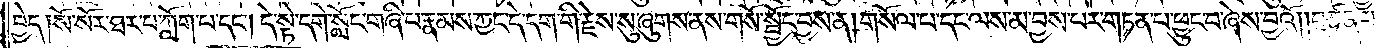བྱེད། སོ་སོར་ཐར་པ་ཀློག་པ་དང༌། དེ་སྟེ་དགེ་སློང་གཞི་པ་རྣམས་ཀྱང་དེ་དག་གི་རྗེས་སུ་ཞུགས་ནས་གསོ་སྦྱོང་བྱས་ན། གསོལ་པ་དང་ལས་མ་བྱས་པར་གཏན་པ་ཕྱུང་བ་ཞེས་བྱའོ། །བཙུན་པ།
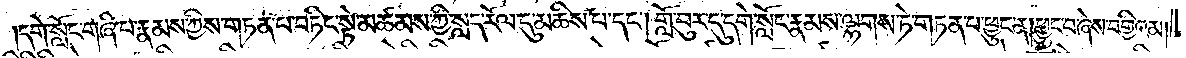དགེ་སློང་གཞི་པ་རྣམས་ཀྱིས་གཏན་པ་བཏིང་སྟེ་མཚམས་ཀྱི་སླད་རོལ་དུ་མཆིས་པ་དང༌། གློ་བུར་དུ་དགེ་སློང་རྣམས་ལྷགས་ཏེ་གཏན་པ་ཕྱུང་ན། ཕྱུང་བ་ཞེས་བགྱིའམ།
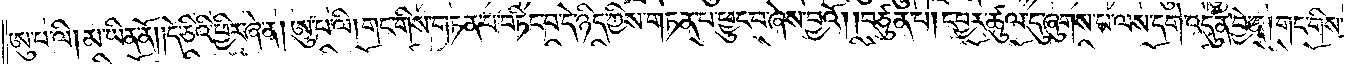ཨུ་པ་ལི། མ་ཡིན་ནོ། །དེ་ཅིའི་ཕྱིར་ཞེ་ན། ཨུ་པ་ལི། གང་གིས་གཏན་པ་བཏིང་བ་དེ་ཉིད་ཀྱིས་གཏན་པ་ཕྱུང་བ་ཞེས་བྱའོ། །བཙུན་པ། དབྱར་ཚུལ་དུ་ཞུགས་པ་ལས་དགེ་འདུན་བྱེ་ན། གང་གིས་
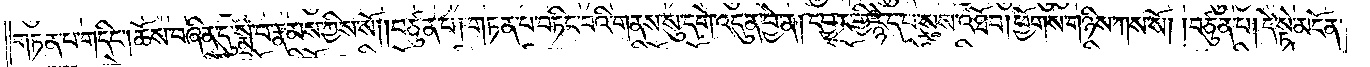གཏན་པ་གདིང༌། ཆོས་བཞིན་དུ་སྨྲ་བ་རྣམས་ཀྱིས་སོ། །བཙུན་པ། གཏན་པ་བཏིང་བའི་གནས་སུ་དགེ་འདུན་བྱེ་ན། དབྱར་གྱི་རྙེད་པ་སུས་འཐོབ། ཕྱོགས་གཉིས་ཀས་སོ། །བཙུན་པ། དེ་སྟེ་མངོན་
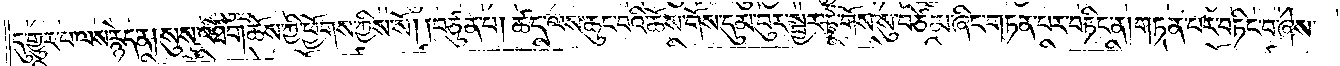དུ་གྱུར་པ་ལས་རྙེད་ན། སུས་འཐོབ། ཆོས་ཀྱི་ཕྱོགས་ཀྱིས་སོ། །བཙུན་པ། ཚད་ལས་ཆུང་བའི་ཆོས་གོས་དུམ་བུར་སྦྱར་ཏེ་གོས་སུ་བཙེམ་ཞིང་གཏན་པར་བཏིང་ན། གཏན་པར་བཏིང་བ་ཞེས་
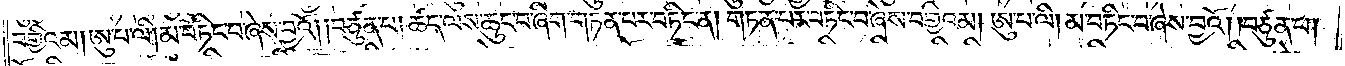བགྱིའམ། ཨུ་པ་ལི། མ་བཏིང་བ་ཞེས་བྱའོ། །བཙུན་པ། ཚད་ལས་ཆུང་བ་ཞིག་གཏན་པར་བཏིང་ན། གཏན་པར་བཏིང་བ་ཞེས་བགྱིའམ། ཨུ་པ་ལི། མ་བཏིང་བ་ཞེས་བྱའོ། །བཙུན་པ།
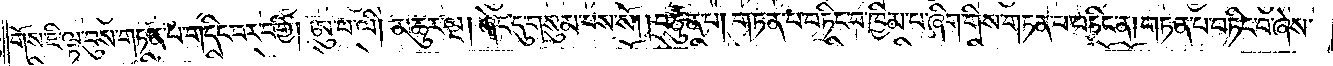གོས་ཇི་ལྟ་བུས་གཏན་པ་གདིང་བར་བགྱི། ཨུ་པ་ལི། མཆུར་ལྔ། ཞེང་དུ་གསུམ་པས་སོ། །བཙུན་པ། གཏན་པ་བཏིང་བ་ཁྱིམ་པ་ཞིག་གིས་གཏན་པ་བཏིང་ན། གཏན་པ་བཏིང་བ་ཞེས་
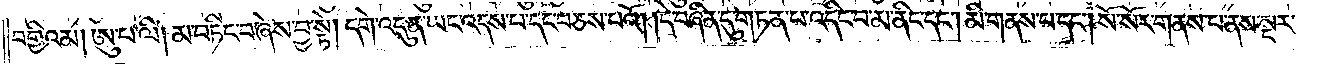བགྱིའམ། ཨུ་པ་ལི། མ་བཏིང་བ་ཞེས་བྱ་སྟེ། དགེ་འདུན་ཡང་འདས་པ་དང་བཅས་པའོ། །དེ་བཞིན་དུ་གཏན་པ་འདིང་བ་མ་ནིང་དང༌། མི་གནས་པ་དང༌། སོ་སོར་གནས་པ་ནས་སྔར་
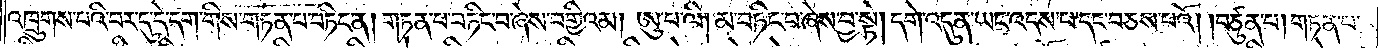འཁྲུགས་པའི་བར་དུ་དེ་དག་གིས་གཏན་པ་བཏིང་ན། གཏན་པ་བཏིང་བ་ཞེས་བགྱིའམ། ཨུ་པ་ལི། མ་བཏིང་བ་ཞེས་བྱ་སྟེ། དགེ་འདུན་ཡང་འདས་པ་དང་བཅས་པའོ། །བཙུན་པ། གཏན་པ་
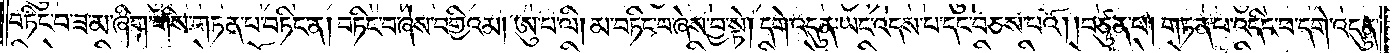བཏིང་བ་ཟ་མ་ཞིག་གིས་གཏན་པ་བཏིང་ན། བཏིང་བ་ཞེས་བགྱིའམ། ཨུ་པ་ལི། མ་བཏིང་བ་ཞེས་བྱ་སྟེ། དགེ་འདུན་ཡང་འདས་པ་དང་བཅས་པའོ། །བཙུན་པ། གཏན་པ་འདིང་བ་དགེ་འདུན་
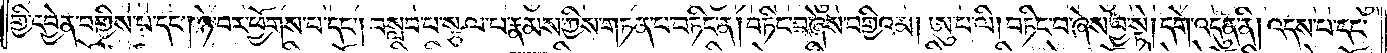གྱི་དབྱེན་བགྱིས་པ་དང༌། ཉེ་བར་ཕྱོགས་པ་དང༌། བསླབ་པ་སྩལ་པ་རྣམས་ཀྱིས་གཏན་པ་བཏིང་ན། བཏིང་བ་ཞེས་བགྱིའམ། ཨུ་པ་ལི། བཏིང་བ་ཞེས་བྱ་སྟེ། དགེ་འདུན་ནི། འདས་པ་དང་
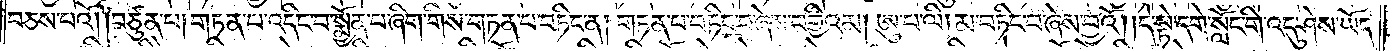བཅས་པའོ། །བཙུན་པ། གཏན་པ་འདིང་བ་སྨྱོན་བ་ཞིག་གིས་གཏན་པ་བཏིང་ན། གཏན་པ་བཏིང་བ་ཞེས་བགྱིའམ། ཨུ་པ་ལི། མ་བཏིང་བ་ཞེས་བྱའོ། །དེ་སྟེ་དགེ་སློང་གི་འདུ་ཤེས་ཡོད་
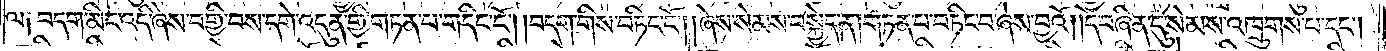ལ༑ བདག་མིང་འདི་ཞེས་བགྱི་བས་དགེ་འདུན་གྱི་གཏན་པ་གདིང་ངོ༌། །བདག་གིས་བཏིང་ངོ༌། །ཞེས་སེམས་བསྐྱེད་ན། གཏན་པ་བཏིང་བ་ཞེས་བྱའོ། །དེ་བཞིན་དུ་སེམས་འཁྲུགས་པ་དང༌།
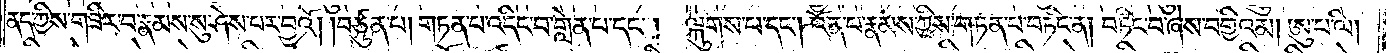ནད་ཀྱིས་གཟིར་བ་རྣམས་སུ་ཤེས་པར་བྱའོ། །བཙུན་པ། གཏན་པ་འདིང་བ་གླེན་པ་དང༌། ལྐུགས་པ་དང༌། འོན་པ་རྣམས་ཀྱིས་གཏན་པ་བཏིང་ན། བཏིང་བ་ཞེས་བགྱིའམ། ཨུ་པ་ལི།
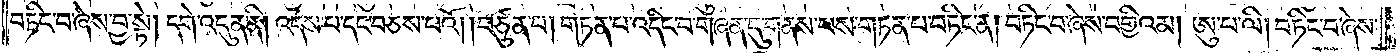བཏིང་བ་ཞེས་བྱ་སྟེ། དགེ་འདུན་ནི། འདས་པ་དང་བཅས་པའོ། །བཙུན་པ། གཏན་པ་འདིང་བ་གཞན་དུ་གནས་པས་གཏན་པ་བཏིང་ན། བཏིང་བ་ཞེས་བགྱིའམ། ཨུ་པ་ལི། བཏིང་བ་ཞེས་
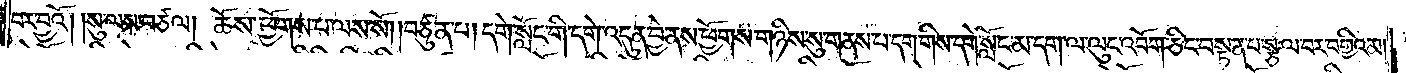བར་བྱའོ། །སུ་ལས་བཙལ། ཆོས་ཕྱོགས་པ་ལས་སོ། །བཙུན་པ། དགེ་སློང་གི་དགེ་འདུན་བྱེ་ནས་ཕྱོགས་གཉིས་སུ་གནས་པ་དག་གིས་དགེ་སློང་མ་དག་ལ་ལུང་འབོག་ཅིང་བསྟན་པ་སྩལ་བར་བགྱིའམ།
